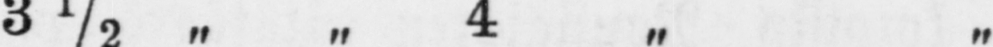3½ „ „ 4 „ „
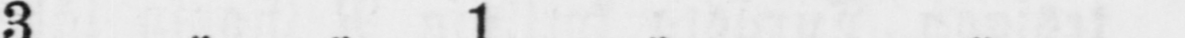3 „ „ 1 „ „
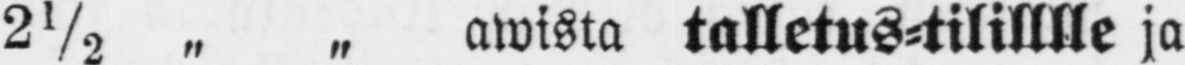2½ „ „ awista talletus-tililllle ja
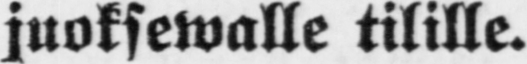juoksewalle tilille.
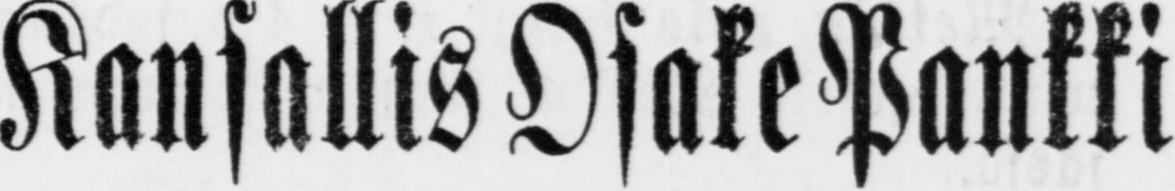Kansallis Osake Pankki
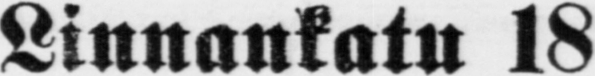Linnankatu 18
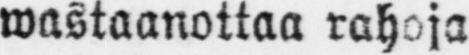wastaanottaa rahoja
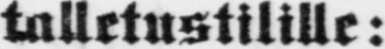talletustilille:
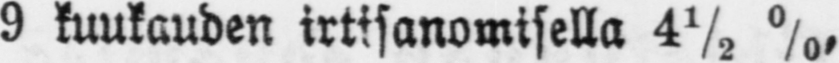9 kuukauden irtisanomisella 4½ %,
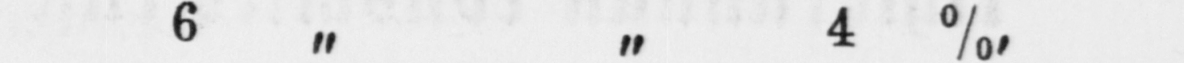6 „ „ 4%,
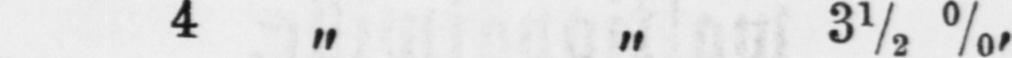4 „ „ 3 ½ % %,
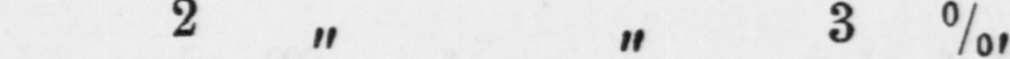2 ˶ ˶ 3%,
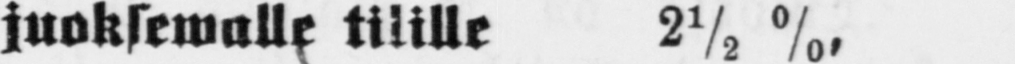juoksemalle tilille 2½ %,
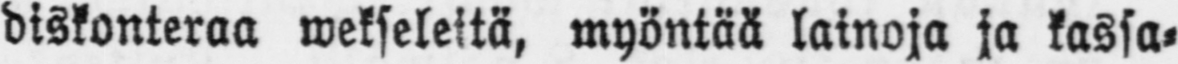diskonteraa wekseleitä, myöntää lainoja ja kassa-
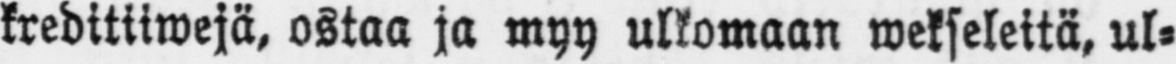kreditiiwejä, ostaa ja myy ulkomaan wekseleitä, ul-
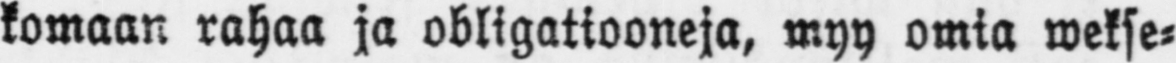komaan rahaa ja obligatiooneja, myy omia wekse-
